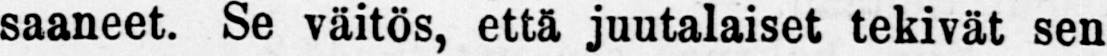saaneet. Se väitös, että juutalaiset tekivät sen
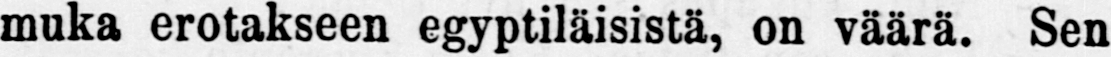muka erotakseen egyptiläisistä, on väärä. Sen
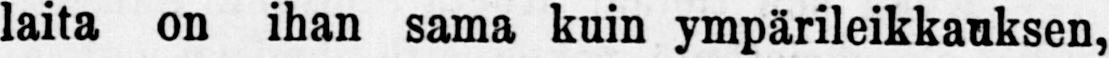laita on ihan sama kuin ympärileikkauksen,
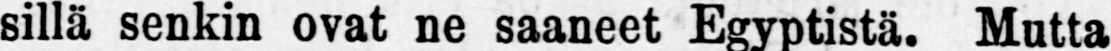sillä senkin ovat ne saaneet Egyptistä. Mutta
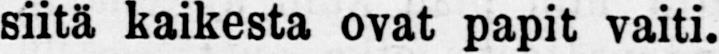siitä kaikesta ovat papit vaiti.
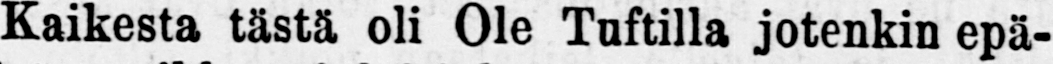Kaikesta tästä oli Ole jotenkin epä-
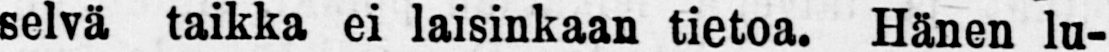selvä taikka ei laisinkaan tietoa. Hänen lu-
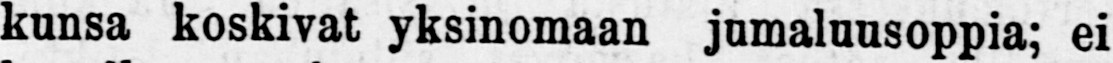kunsa koskivat yksinomaan jumaluusoppia; ei
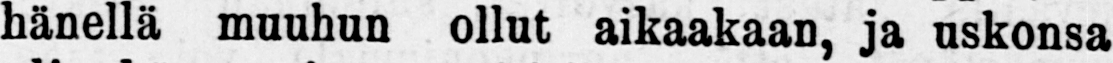hänellä muuhun ollut aikaakaan, ja uskonsa
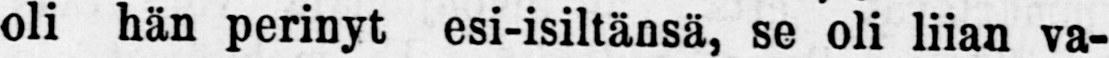oli hän perinyt esi-isiltänsä, se oli liian va-
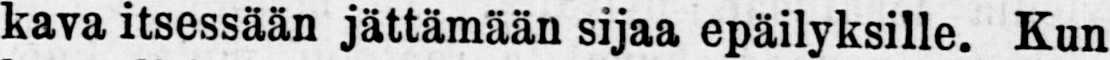kava itsessään jättämään sijaa epäilyksille. Kun
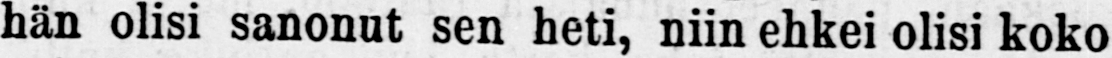hän olisi sanonut sen heti, niin ehkei olisi koko
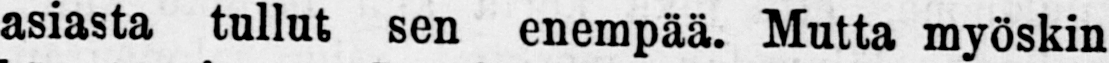asiasta tullut sen enempää. Mutta myöskin
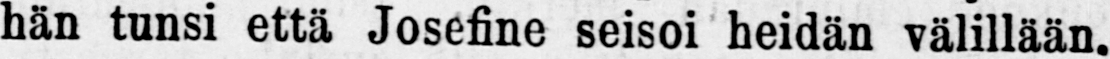hän tunsi että Josefine seisoi heidän välillään.
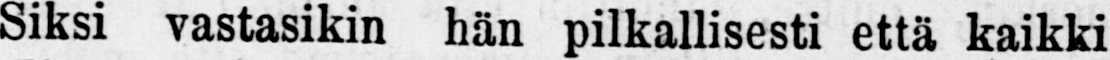Siksi vastasikin hän pilkallisesti että kaikki
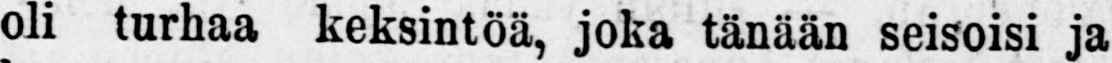oli turhaa keksintöä, joka tänään seisoisi ja
